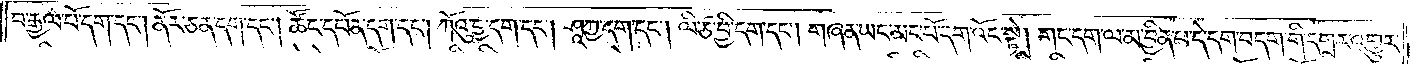བ་རྒྱལ་པོ་དག་དང༌། ནོར་ཅན་དག་དང༌། ཚོང་དཔོན་དག་དང༌། ཀོའུ་དྱ་དག་དང༌། ཤཱཀྱ་དག་དང༌། ལི་ཙ་བྱི་དག་དང༌། གཞན་ཡང་མང་པོ་དག་འོང་སྟེ། གང་དག་ལ་མ་བྱིན་པ་དེ་དག་བདག་གི་དགྲར་འགྱུར་
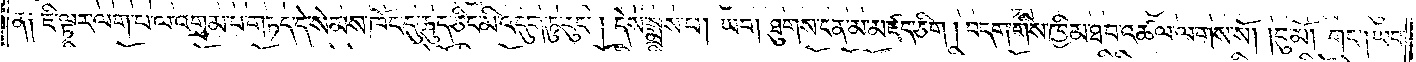ན༑ ཇི་ལྟར་ལག་པ་ལ་འགྲམ་པ་གཏད་དེ་སེམས་ཁོང་དུ་ཆུད་ཅིང་མི་འདུག་ཏུ་རུང༌། དེས་སྨྲས་པ། ཡབ། ཐུགས་ངན་མ་མཛད་ཅིག། བདག་གིས་ཁྱིམ་ཐབ་འཚལ་ལགས་སོ། །བུ་མོ། གང༌། ཡབ་
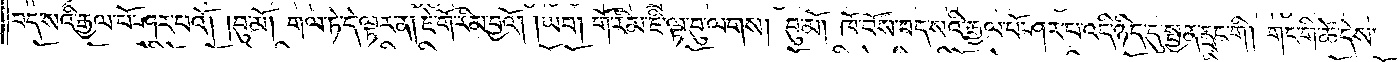བད་སའི་རྒྱལ་པོ་ཤར་པའོ། །བུ་མོ། གལ་ཏེ་དེ་ལྟར་ན། ཇེ་གོ་རིམ་བྱའོ། །ཡབ། གོ་རིམ་ཇི་ལྟ་བུ་ལགས། བུ་མོ། ཁོ་བོས་བད་སའི་རྒྱལ་པོ་ཤར་པ་འདི་ཉིད་དུ་སྤྱན་དྲང་གི། གང་གི་ཚེ་དེས་
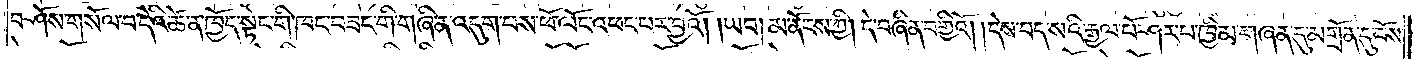བཤོས་གསོལ་བ་དེའི་ཚེ་ན་ཁྱོད་སྟེང་གི་ཁང་བཟང་གི་གཞི་ན་འདུག་པས་ཕོ་ལོང་འཕང་པར་བྱའོ། །ཡབ། མ་ནོངས་ཀྱི། དེ་བཞིན་བགྱིའོ། །དེས་བད་སའི་རྒྱལ་པོ་ཤར་པ་ཁྱིམ་གཞན་དུ་མགྲོན་དུ་བོས་
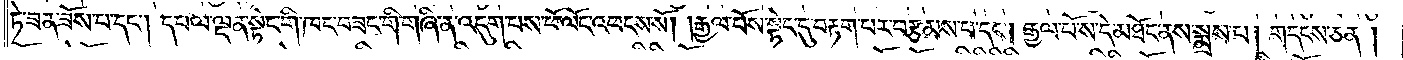ཏེ་ཟན་ཟོས་པ་དང༌། དཔལ་ལྡན་སྟེང་གི་ཁང་བཟང་གི་གཞི་ན་འདུག་པས་ཕོ་ལོང་འཕངས་སོ། །རྒྱལ་པོས་སྟེང་དུ་བརྟག་པར་བརྩམས་པ་དང༌། རྒྱལ་པོས་དེ་མཐོང་ནས་སྨྲས་པ། གདངས་ཅན་
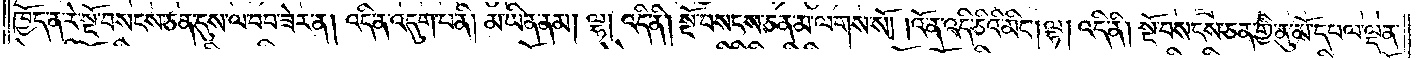ཁྱོད་ན་རེ་སྔོ་བསངས་ཅན་དུས་ལ་བབ་ཟེར་ན། འདི་ན་འདུག་པ་ནི། མ་ཡིན་ནམ། ལྷ། འདི་ནི། སྔོ་བསངས་ཅན་མ་ལགས་སོ། །འོ་ན་འདི་ཅིའི་མིང༌། ལྷ། འདི་ནི། སྔོ་བསངས་ཅན་གྱི་ནུ་མོ་དཔལ་ལྡན་
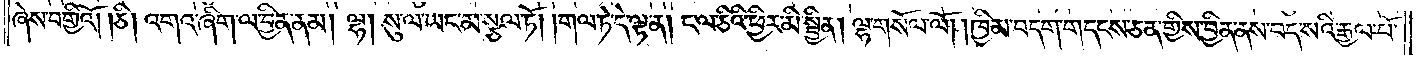ཞེས་བགྱིའོ། །ཅི། འགའ་ཞིག་ལ་བྱིན་ནམ། ལྷ། སུ་ལ་ཡང་མ་སྩལ་ཏོ། །གལ་ཏེ་དེ་ལྟ་ན། ང་ལ་ཅིའི་ཕྱིར་མི་སྦྱིན། ལྷ་གསོལ་ལོ། །ཁྱིམ་བདག་གདངས་ཅན་གྱིས་བྱིན་ནས་བད་སའི་རྒྱལ་པོ་
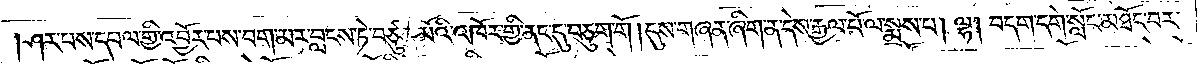།ཤར་པས་དཔལ་གྱི་འབྱོར་པས་བག་མར་བླངས་ཏེ་བཙུན་མོའི་འཁོར་གྱི་ནང་དུ་བཅུག་གོ །དུས་གཞན་ཞིག་ན་དེས་རྒྱལ་པོ་ལ་སྨྲས་པ། ལྷ། བདག་དགེ་སློང་མཐོང་བར་
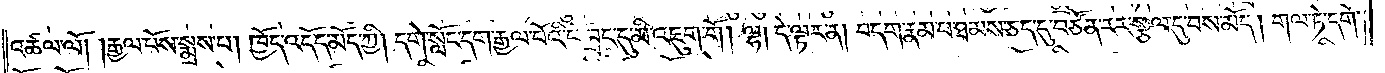འཚལ་ལོ། །རྒྱལ་པོས་སྨྲས་པ། ཁྱོད་འདོད་མོད་ཀྱི། དགེ་སློང་དག་རྒྱལ་པོའི་ཕོ་བྲང་དུ་མི་འཇུག་གོ། ལྷ། དེ་ལྟར་ན། བདག་རྣམ་པ་ཐམས་ཅད་དུ་བཙོན་རར་སྩལ་དུ་བས་མོད། གལ་ཏེ་དགེ་
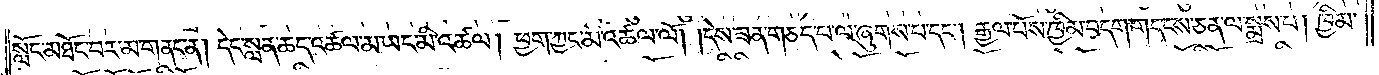སློང་མཐོང་བར་མ་གནང་ན། དེང་སླན་ཆད་འཚལ་མ་ཡང་མི་འཚལ། ཕྱག་ཀྱང་མི་འཚལ་ལོ། །དེས་ཟན་གཅད་པ་ལ་ཞུགས་པ་དང༌། རྒྱལ་པོས་ཁྱིམ་བདག་གདངས་ཅན་ལ་སྨྲས་པ། ཁྱིམ་
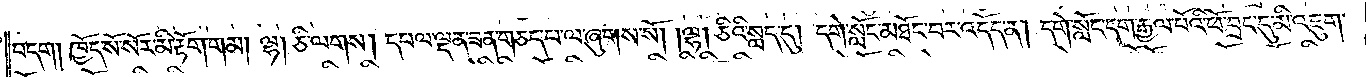བདག། ཁྱོད་སོ་སོར་མི་རྟོག་གམ། ལྷ། ཅི་ལགས། དཔལ་ལྡན་ཟན་གཅད་པ་ལ་ཞུགས་སོ། །ལྷ། ཅིའི་སླད་དུ། དགེ་སློང་མཐོང་བར་འདོད་ན། དགེ་སློང་དག་རྒྱལ་པོའི་ཕོ་བྲང་དུ་མི་འཇུག་
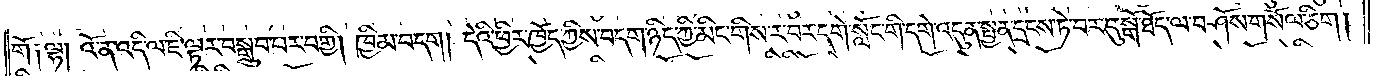གོ༑ ལྷ། འོ་ན་འདི་ལ་ཇི་ལྟར་བསྒྲུབ་པར་བགྱི། ཁྱིམ་བདག། དེའི་ཕྱིར་ཁྱོད་ཀྱིས་བདག་ཉིད་ཀྱི་མིང་གིས་ར་བར་དགེ་སློང་གི་དགེ་འདུན་སྤྱན་དྲངས་ཏེ་བར་དུ་སྒོ་ཐོད་ལ་བཤོས་གསོལ་ཅིག །
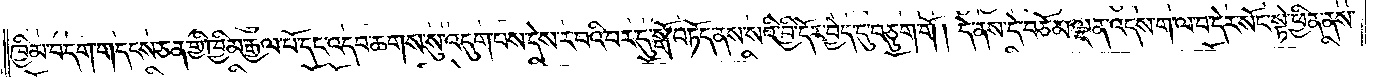ཁྱིམ་བདག་གདངས་ཅན་གྱི་ཁྱིམ་རྒྱལ་པོ་དང་འདབ་ཆགས་སུ་འདུག་པས་དེས་ར་བའི་བར་དུ་སྒོ་བཏོད་ནས་སའི་བྱི་དོར་བྱེད་དུ་བཅུག་གོ། དེ་ནས་དེ་བཅོམ་ལྡན་འདས་ག་ལ་བ་དེར་སོང་སྟེ་ཕྱིན་ནས་
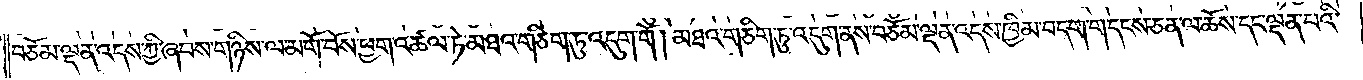བཅོམ་ལྡན་འདས་ཀྱི་ཞབས་གཉིས་ལ་མགོ་བོས་ཕྱག་འཚལ་ཏེ་མཐའ་གཅིག་ཏུ་འདུག་གོ། མཐའ་གཅིག་ཏུ་འདུག་ནས་བཅོམ་ལྡན་འདས་ཁྱིམ་བདག་གདངས་ཅན་ལ་ཆོས་དང་ལྡན་པའི་
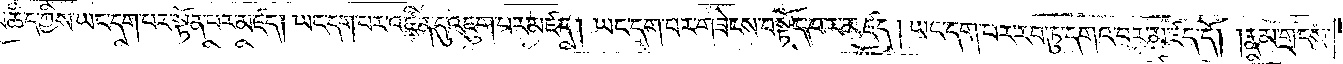བཀའ་མཆིད་ཀྱིས་ཡང་དག་པར་སྟོན་པར་མཛད། ཡང་དག་པར་འཛིན་དུ་འཇུག་པར་མཛད། ཡང་དག་པར་གཟེངས་བསྟོད་པར་མཛད། ཡང་དག་པར་རབ་ཏུ་དགའ་བར་མཛད་དོ། །རྣམ་གྲངས་
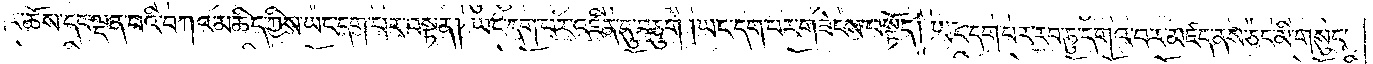དུ་མར་ཆོས་དང་ལྡན་པའི་བཀའ་མཆིད་ཀྱིས་ཡང་དག་པར་བསྟན། ཡང་དག་པར་འཛིན་དུ་བཅུག །ཡང་དག་པར་གཟེངས་བསྟོད། ཡང་དག་པར་རབ་ཏུ་དགའ་བར་མཛད་ནས་ཅང་མི་གསུང་
